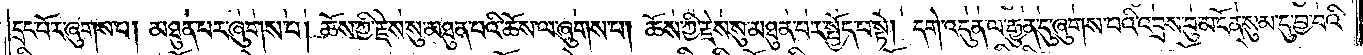དྲང་པོར་ཞུགས་པ། མཐུན་པར་ཞུགས་པ། ཆོས་ཀྱི་རྗེས་སུ་མཐུན་པའི་ཆོས་ལ་ཞུགས་པ། ཆོས་ཀྱི་རྗེས་སུ་མཐུན་པར་སྤྱོད་པ་སྟེ། དགེ་འདུན་ལ་རྒྱུན་དུ་ཞུགས་པའི་འབྲས་བུ་མངོན་སུམ་དུ་བྱ་བའི་
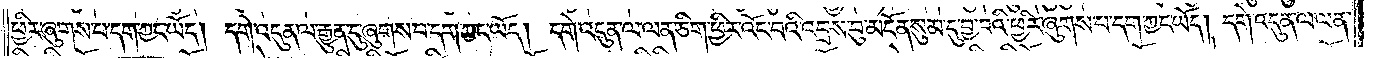ཕྱིར་ཞུགས་པ་དག་ཀྱང་ཡོད། དགེ་འདུན་ལ་རྒྱུན་དུ་ཞུགས་པ་དག་ཀྱང་ཡོད། དགེ་འདུན་ལ་ལན་ཅིག་ཕྱིར་འོང་བའི་འབྲས་བུ་མངོན་སུམ་དུ་བྱ་བའི་ཕྱིར་ཞུགས་པ་དག་ཀྱང་ཡོད། དགེ་འདུན་ལ་ལན་
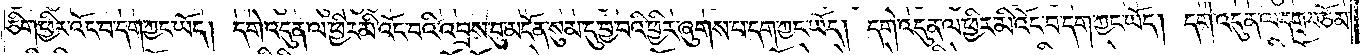ཅིག་ཕྱིར་འོང་བ་དག་ཀྱང་ཡོད། དགེ་འདུན་ལ་ཕྱིར་མི་འོང་བའི་འབྲས་བུ་མངོན་སུམ་དུ་བྱ་བའི་ཕྱིར་ཞུགས་པ་དག་ཀྱང་ཡོད། དགེ་འདུན་ལ་ཕྱིར་མི་འོང་བ་དག་ཀྱང་ཡོད། དགེ་འདུན་ལ་དགྲ་བཅོམ་
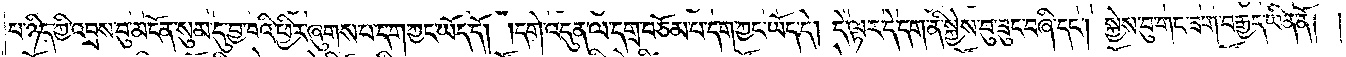པ་ཉིད་ཀྱི་འབྲས་བུ་མངོན་སུམ་དུ་བྱ་བའི་ཕྱིར་ཞུགས་པ་དག་ཀྱང་ཡོད་དོ། །དགེ་འདུན་ལ་དགྲ་བཅོམ་པ་དག་ཀྱང་ཡོད་དེ། དེ་ལྟར་དེ་དག་ནི་སྐྱེས་བུ་ཟུང་བཞི་དང༌། སྐྱེས་བུ་གང་ཟག་བརྒྱད་ཡིན་ནོ། །
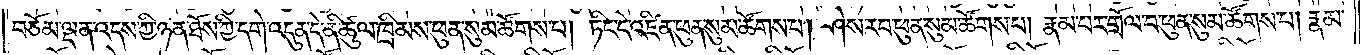བཅོམ་ལྡན་འདས་ཀྱི་ཉན་ཐོས་ཀྱི་དགེ་འདུན་དེ་ནི་ཚུལ་ཁྲིམས་ཕུན་སུམ་ཚོགས་པ། ཏིང་ངེ་འཛིན་ཕུན་སུམ་ཚོགས་པ། ཤེས་རབ་ཕུན་སུམ་ཚོགས་པ། རྣམ་པར་གྲོལ་བ་ཕུན་སུམ་ཚོགས་པ། རྣམ་
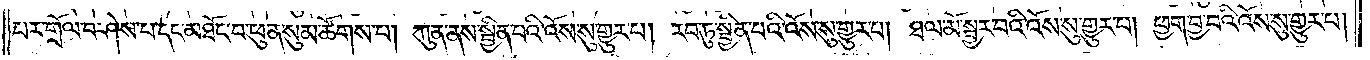པར་གྲོལ་བ་ཤེས་པ་དང་མཐོང་བ་ཕུན་སུམ་ཚོགས་པ། ཀུན་ནས་སྦྱིན་པའི་འོས་སུ་གྱུར་པ། རབ་ཏུ་སྦྱིན་པའི་འོས་སུ་གྱུར་པ། ཐལ་མོ་སྦྱར་བའི་འོས་སུ་གྱུར་པ། ཕྱག་བྱ་བའི་འོས་སུ་གྱུར་པ།
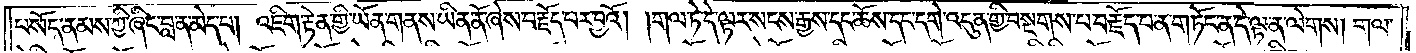བསོད་ནམས་ཀྱི་ཞིང་བླ་ན་མེད་པ། འཇིག་རྟེན་གྱི་ཡོན་གནས་ཡིན་ནོ་ཞེས་བརྗོད་པར་བྱའོ། །གལ་ཏེ་དེ་ལྟར་སངས་རྒྱས་དང་ཆོས་དང་དགེ་འདུན་གྱི་བསྔགས་པ་བརྗོད་པ་ན་གཏོང་ན་དེ་ལྟ་ན་ལེགས། གལ་
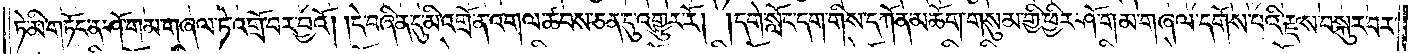ཏེ་མི་གཏོང་ན་ཤོ་གམ་གཞལ་ཏེ་འགྲོ་བར་བྱའོ། །དེ་བཞིན་དུ་མི་འགྲོ་ན་འགལ་ཚབས་ཅན་དུ་འགྱུར་རོ། །དགེ་སློང་དག་གིས་དཀོན་མཆོག་གསུམ་གྱི་ཕྱིར་ཤོ་གམ་གཞལ་དགོས་པའི་རྫས་བསྐུར་བར་
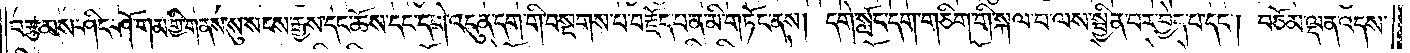བརྩམས་ཤིང་ཤོ་གམ་གྱི་གནས་སུ་སངས་རྒྱས་དང་ཆོས་དང་དགེ་འདུན་དག་གི་བསྔགས་པ་བརྗོད་པ་ན་མི་གཏོང་ནས། དགེ་སློང་དག་གཅིག་གི་སྐལ་བ་ལས་སྦྱིན་པར་བྱེད་པ་དང༌། བཅོམ་ལྡན་འདས་
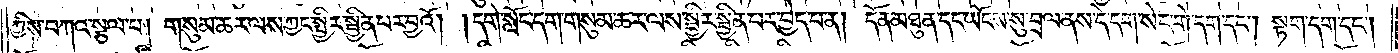ཀྱིས་བཀའ་སྩལ་པ། གསུམ་ཆར་ལས་ཀྱང་སྤྱིར་སྦྱིན་པར་བྱའོ། །དགེ་སློང་དག་གསུམ་ཆར་ལས་སྤྱིར་སྦྱིན་པར་བྱེད་པ་ན། དོན་མཐུན་དང་ཡོངས་སུ་བྲལ་ནས་དེ་དག་སེང་གེ་དག་དང༌། སྟག་དག་དང༌།
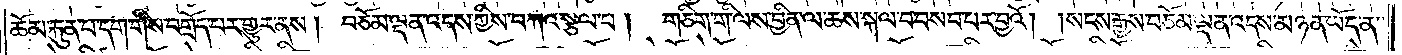ཆོམ་རྐུན་པ་དག་གིས་བགྲོད་པར་གྱུར་ནས། བཅོམ་ལྡན་འདས་ཀྱིས་བཀའ་སྩལ་པ། གཅིག་གི་ལས་བྱིན་ལ་ཆས་སྐལ་བ་བསབ་པར་བྱའོ། །སངས་རྒྱས་བཅོམ་ལྡན་འདས་མཉན་ཡོད་ན་
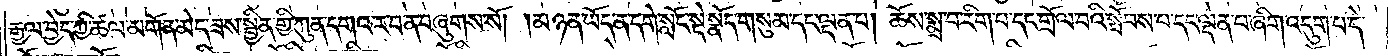རྒྱལ་བྱེད་ཀྱི་ཚལ་མགོན་མེད་ཟས་སྦྱིན་གྱི་ཀུན་དགའ་ར་བ་ན་བཞུགས་སོ། །མཉན་ཡོད་ན་དགེ་སློང་སྡེ་སྣོད་གསུམ་དང་ལྡན་པ། ཆོས་སྨྲ་བ་རིག་པ་དང་གྲོལ་བའི་སྤོབས་པ་དང་ལྡན་པ་ཞིག་འདུག་པ་དེ་
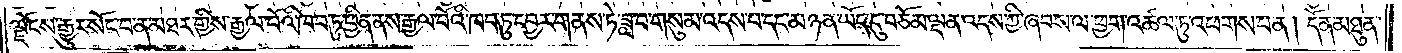ལྗོངས་རྒྱུར་སོང་བ་ན་མཐར་གྱིས་རྒྱལ་པོའི་ཁབ་ཏུ་ཕྱིན་ནས་རྒྱལ་པོའི་ཁབ་ཏུ་དབྱར་གནས་ཏེ་ཟླ་བ་གསུམ་འདས་པ་དང་མཉན་ཡོད་དུ་བཅོམ་ལྡན་འདས་ཀྱི་ཞབས་ལ་ཕྱག་འཚལ་ཏུ་འཕགས་པ་ན། དོན་མཐུན་
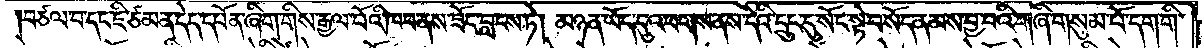བཙལ་བ་དང་ཇི་ཙམ་ན་དེད་དཔོན་ཞིག་གིས་རྒྱལ་པོའི་ཁབ་ནས་ཟོང་བླངས་ཏེ། མཉན་ཡོད་དུ་འཕགས་ནས་དེའི་དྲུང་དུ་སོང་སྟེ་བསོད་ནམས་བྱ་བའི་གཞི་གསུམ་པོ་དག་གི་
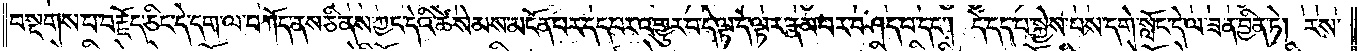བསྔགས་པ་བརྗོད་ཅིང་དེ་དག་ལ་བཀོད་ནས་ཅི་ནས་ཀྱང་དེའི་ཚེ་སེམས་མངོན་པར་དད་པར་འགྱུར་བ་དེ་ལྟ་དེ་ལྟར་རྣམ་པར་བཤད་པ་དང༌། དེ་དད་པ་སྐྱེས་པས་དགེ་སློང་དེ་ལ་ཟན་བྱིན་ཏེ། རས་
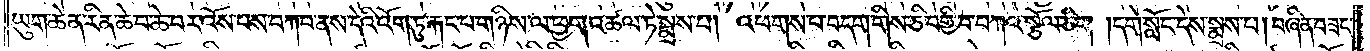ཡུག་ཆེན་རིན་ཆེ་བ་ཆེ་བར་འོས་པས་བཀབ་ནས་དེའི་འོག་ཏུ་རྐང་པ་གཉིས་ལ་ཕྱག་འཚལ་ཏེ་སྨྲས་པ། འཕགས་པ་བདག་གིས་ཅི་བགྱི་བ་བཀའ་སྩོལ་ཅིག །དགེ་སློང་དེས་སྨྲས་པ། བཞིན་བཟང་
